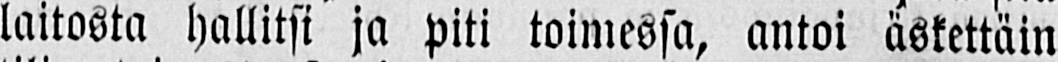laitosta hallitsi ja piti toimessa, antoi äskettäin
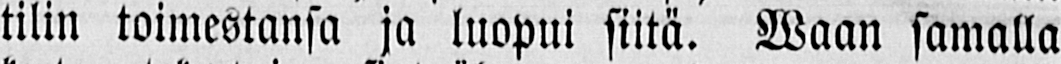tilin toimestansa ja luopui siitä. Waan samalla
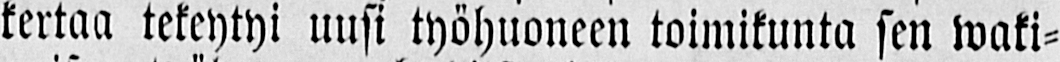kertaa tekeytyi uusi työhuoneen toimikunta sen waki-
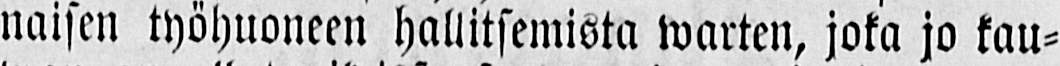naisen työhuoneen hallitsemista warten, joka jo kau-
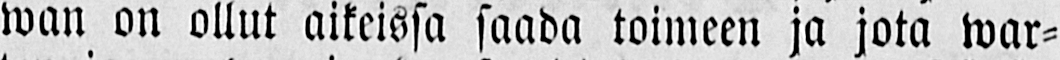wan on ollut aikeissa saada toimeen ja jota war-
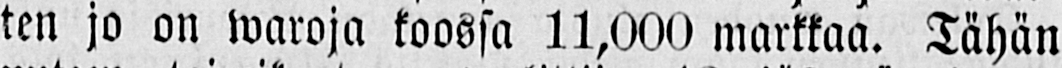ten jo on waroja koossa 11,000 markkaa. Tähän
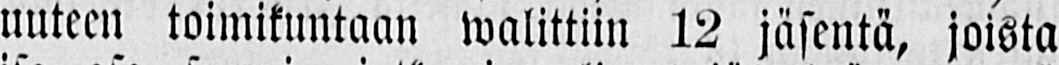uuteen toimikuntaan walittiin 12 jäsentä, joista
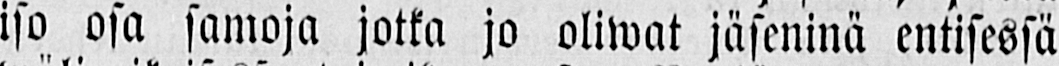iso osa lamoja jotka jo oliwat jäseninä entisessä
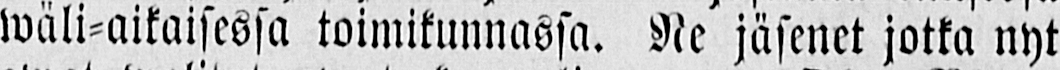wäli-aikaisessa toimikunnassa. Ne jäsenet jotka nyt
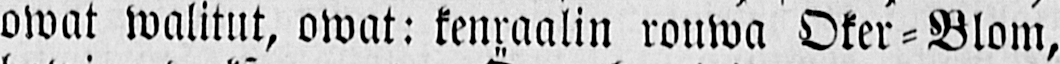owat walitut, owat: kenraalin rouwa Oker-Blom,
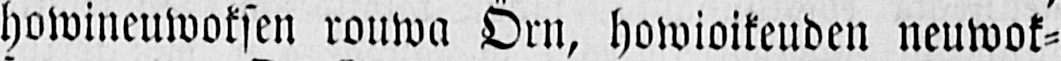howineuwoksen rouwa Örn, howioikeuden neuwok-
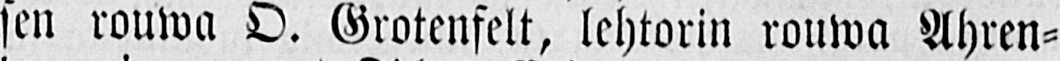sen rouwa O. Grotenfelt, lehtorin rouwa Ahren-
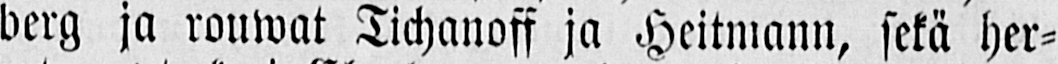berg ja rouwat Tichanoff ja Heitmann, sekä her-
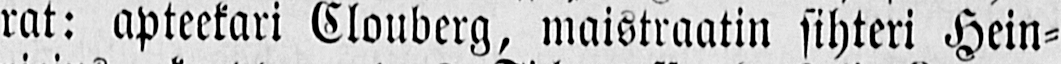rat: apteekari Clouberg, maistraatin sihteri Hein-
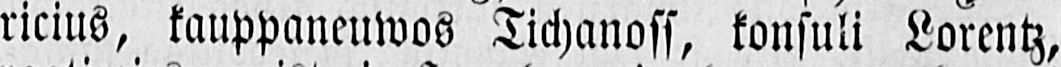ricius, kauppaneuwos Tichanoff, konsuli Lorentz,
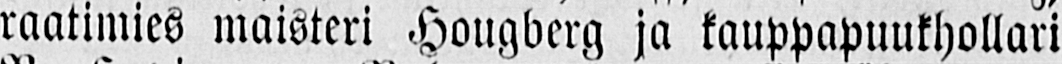raatimies maisteri Hougberg ja kauppapuukhollari
